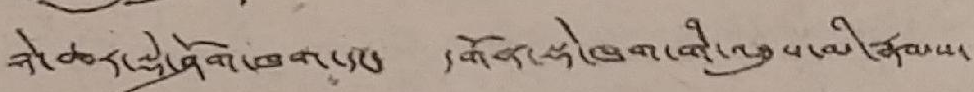ཉེ་ཆར་སྡེ་ཤོག་ཁག་དང་ དགོན་སྡེ་ཁག་གི་འཐུས་མི་རྣམས་
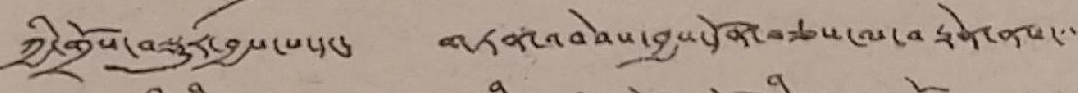ཀྱི་གྲོས་བསྡུར་བྱས་པ་དང་ གཏན་འབེབས་བྱས་དོན་བཅས་ལ་བརྟེན་ནས་་་
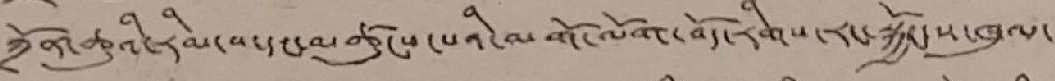ཀྲོན་ཆུའི་རིམ་པ་དང་མཚུངས་པའི་མགོ་ལོག་བོད་རིགས་རང་སྐྱོང་ས་ཁུལ་
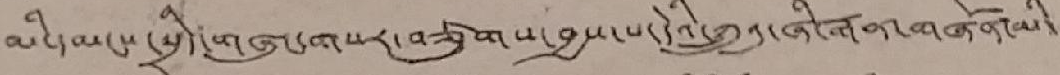མི་དམངས་སྲིད་གཞུང་གསར་བཙུགས་བྱས་པ་དེའི་ཀྲུའུ་ཞི་རྒན་གཞོན་མི་
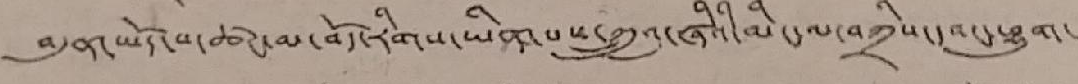བདུན་ཡོད་པ་ཚང་མ་བོད་རིགས་ཡིན་པས་ཀྲུའུ་ཞིའི་མི་ལ་བཀྲིས་དབང་ཕྱུག་
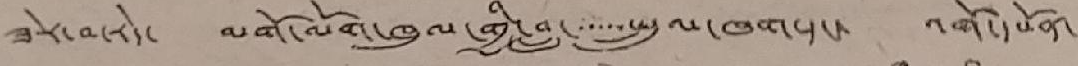ཟེར་བ་རེད་ མགོ་ལོག་ཁུལ་གྱི་བླ་་་་་་སྤྲུལ་ཁག་དང་ འགོ་དཔོན་
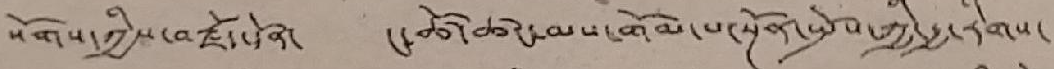སོགས་ཀྱིས་བརྗོད་དོན་ ང་ཚོ་ཚང་མས་གོམ་པ་སྔོན་སྤོས་ཀྱི་རྒྱ་རིགས་
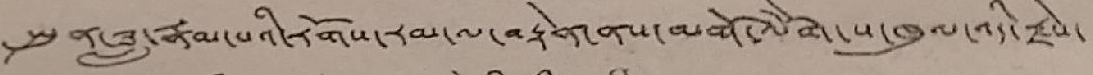སྤུན་ཟླ་རྣམས་པའི་རོགས་རམ་ལ་བརྟེན་ནས་མགོ་ལོག་ས་ཁུལ་འདི་རྗེས་
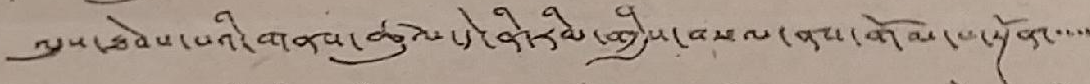ལུས་ཐེབས་པའི་གནས་ཚུལ་དེ་ནི་རིམ་གྱིས་བསལ་ནས་གོམ་པ་སྔོན་་་་་
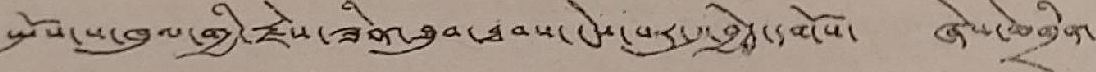སྤོས་ས་ཁུལ་གྱི་རྗེས་ཟིན་ཐུབ་ཐབས་ངེས་པར་དུ་བྱེད་དགོས་ ཞེས་མགྲིན་
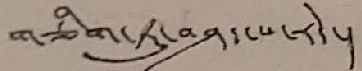གཅིག་ཏུ་བཤད་པ་རེད་།
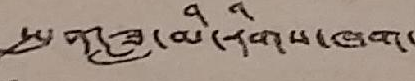སྤུན་ཟླ་མི་རིགས་ཁག་
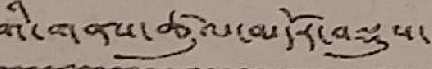གི་གནས་ཚུལ་མདོར་བསྡུས་
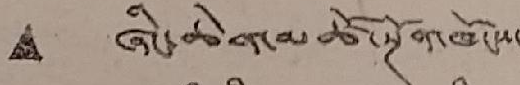• ཞིང་ཆེན་མཚོ་སྔོན་ཁོངས་
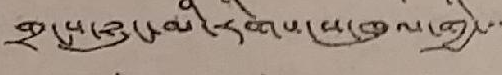གྲངས་ཉུང་མི་རིགས་ས་ཁུལ་གྱི་་་
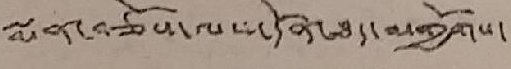སྨན་བཅོས་ལས་དོན་ཐད་མགྱོགས་
